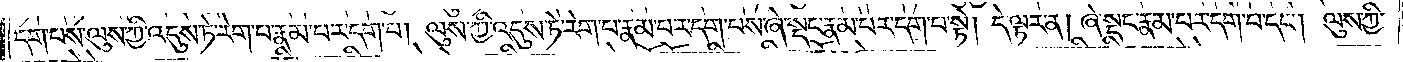དག་པས་ལུས་ཀྱི་འདུས་ཏེ་རེག་པ་རྣམ་པར་དག་པ། ལུས་ཀྱི་འདུས་ཏེ་རེག་པ་རྣམ་པར་དག་པས་ཞེ་སྡང་རྣམ་པར་དག་པ་སྟེ། དེ་ལྟར་ན། ཞེ་སྡང་རྣམ་པར་དག་པ་དང༌། ལུས་ཀྱི་
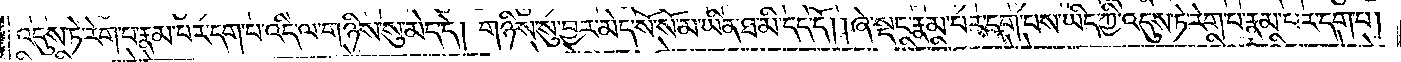འདུས་ཏེ་རེག་པ་རྣམ་པར་དག་པ་འདི་ལ་གཉིས་སུ་མེད་དེ། གཉིས་སུ་བྱར་མེད་སོ་སོ་མ་ཡིན་ཐ་མི་དད་དོ། །ཞེ་སྡང་རྣམ་པར་དག་པས་ཡིད་ཀྱི་འདུས་ཏེ་རེག་པ་རྣམ་པར་དག་པ།
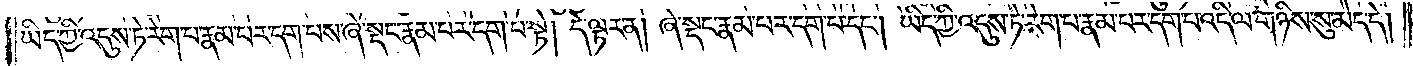ཡིད་ཀྱི་འདུས་ཏེ་རེག་པ་རྣམ་པར་དག་པས་ཞེ་སྡང་རྣམ་པར་དག་པ་སྟེ། དེ་ལྟར་ན། ཞེ་སྡང་རྣམ་པར་དག་པ་དང༌། ཡིད་ཀྱི་འདུས་ཏེ་རེག་པ་རྣམ་པར་དག་པ་འདི་ལ་གཉིས་སུ་མེད་དེ།
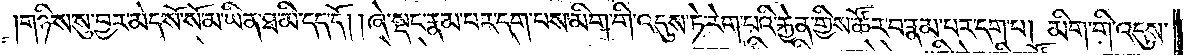གཉིས་སུ་བྱར་མེད་སོ་སོ་མ་ཡིན་ཐ་མི་དད་དོ། །ཞེ་སྡང་རྣམ་པར་དག་པས་མིག་གི་འདུས་ཏེ་རེག་པའི་རྐྱེན་གྱིས་ཚོར་བ་རྣམ་པར་དག་པ། མིག་གི་འདུས་
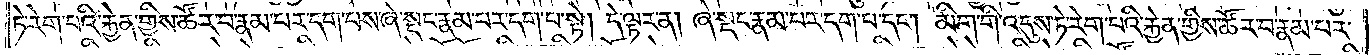ཏེ་རེག་པའི་རྐྱེན་གྱིས་ཚོར་བ་རྣམ་པར་དག་པས་ཞེ་སྡང་རྣམ་པར་དག་པ་སྟེ། དེ་ལྟར་ན། ཞེ་སྡང་རྣམ་པར་དག་པ་དང༌། མིག་གི་འདུས་ཏེ་རེག་པའི་རྐྱེན་གྱིས་ཚོར་བ་རྣམ་པར་
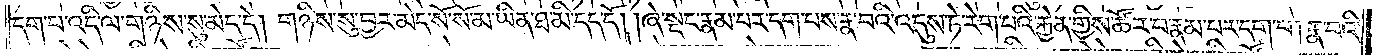དག་པ་འདི་ལ་གཉིས་སུ་མེད་དེ། གཉིས་སུ་བྱར་མེད་སོ་སོ་མ་ཡིན་ཐ་མི་དད་དོ། །ཞེ་སྡང་རྣམ་པར་དག་པས་རྣ་བའི་འདུས་ཏེ་རེག་པའི་རྐྱེན་གྱིས་ཚོར་བ་རྣམ་པར་དག་པ། རྣ་བའི་
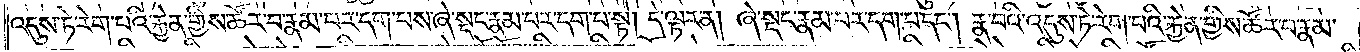འདུས་ཏེ་རེག་པའི་རྐྱེན་གྱིས་ཚོར་བ་རྣམ་པར་དག་པས་ཞེ་སྡང་རྣམ་པར་དག་པ་སྟེ། དེ་ལྟར་ན། ཞེ་སྡང་རྣམ་པར་དག་པ་དང༌། རྣ་བའི་འདུས་ཏེ་རེག་པའི་རྐྱེན་གྱིས་ཚོར་བ་རྣམ་
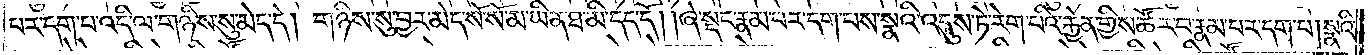པར་དག་པ་འདི་ལ་གཉིས་སུ་མེད་དེ། གཉིས་སུ་བྱར་མེད་སོ་སོ་མ་ཡིན་ཐ་མི་དད་དོ། །ཞེ་སྡང་རྣམ་པར་དག་པས་སྣའི་འདུས་ཏེ་རེག་པའི་རྐྱེན་གྱིས་ཚོར་བ་རྣམ་པར་དག་པ། སྣའི་
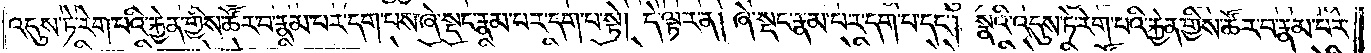འདུས་ཏེ་རེག་པའི་རྐྱེན་གྱིས་ཚོར་བ་རྣམ་པར་དག་པས་ཞེ་སྡང་རྣམ་པར་དག་པ་སྟེ། དེ་ལྟར་ན། ཞེ་སྡང་རྣམ་པར་དག་པ་དང༌། སྣའི་འདུས་ཏེ་རེག་པའི་རྐྱེན་གྱིས་ཚོར་བ་རྣམ་པར་
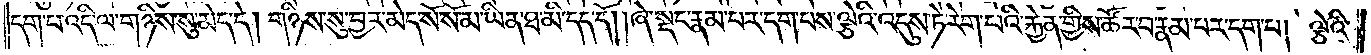དག་པ་འདི་ལ་གཉིས་སུ་མེད་དེ། གཉིས་སུ་བྱར་མེད་སོ་སོ་མ་ཡིན་ཐ་མི་དད་དོ། །ཞེ་སྡང་རྣམ་པར་དག་པས་ལྕེའི་འདུས་ཏེ་རེག་པའི་རྐྱེན་གྱིས་ཚོར་བ་རྣམ་པར་དག་པ། ལྕེའི་
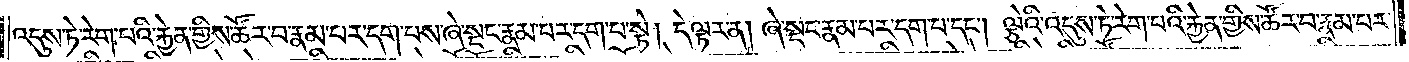འདུས་ཏེ་རེག་པའི་རྐྱེན་གྱིས་ཚོར་བ་རྣམ་པར་དག་པས་ཞེ་སྡང་རྣམ་པར་དག་པ་སྟེ། དེ་ལྟར་ན། ཞེ་སྡང་རྣམ་པར་དག་པ་དང༌། ལྕེའི་འདུས་ཏེ་རེག་པའི་རྐྱེན་གྱིས་ཚོར་བ་རྣམ་པར་
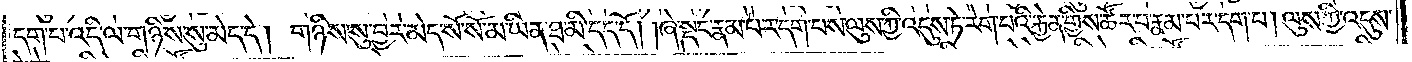དག་པ་འདི་ལ་གཉིས་སུ་མེད་དེ། གཉིས་སུ་བྱར་མེད་སོ་སོ་མ་ཡིན་ཐ་མི་དད་དོ། །ཞེ་སྡང་རྣམ་པར་དག་པས་ལུས་ཀྱི་འདུས་ཏེ་རེག་པའི་རྐྱེན་གྱིས་ཚོར་བ་རྣམ་པར་དག་པ། ལུས་ཀྱི་འདུས་
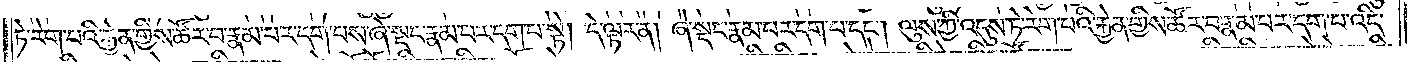ཏེ་རེག་པའི་རྐྱེན་གྱིས་ཚོར་བ་རྣམ་པར་དག་པས་ཞེ་སྡང་རྣམ་པར་དག་པ་སྟེ། དེ་ལྟར་ན། ཞེ་སྡང་རྣམ་པར་དག་པ་དང༌། ལུས་ཀྱི་འདུས་ཏེ་རེག་པའི་རྐྱེན་གྱིས་ཚོར་བ་རྣམ་པར་དག་པ་འདི་
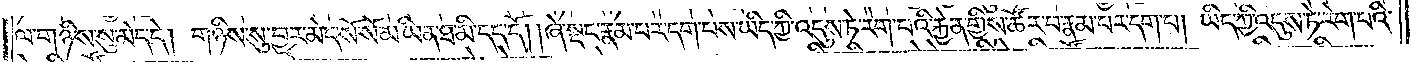ལ་གཉིས་སུ་མེད་དེ། གཉིས་སུ་བྱར་མེད་སོ་སོ་མ་ཡིན་ཐ་མི་དད་དོ། །ཞེ་སྡང་རྣམ་པར་དག་པས་ཡིད་ཀྱི་འདུས་ཏེ་རེག་པའི་རྐྱེན་གྱིས་ཚོར་བ་རྣམ་པར་དག་པ། ཡིད་ཀྱི་འདུས་ཏེ་རེག་པའི་
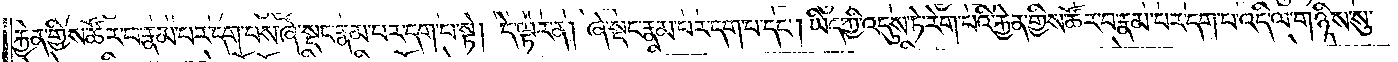རྐྱེན་གྱིས་ཚོར་བ་རྣམ་པར་དག་པས་ཞེ་སྡང་རྣམ་པར་དག་པ་སྟེ། དེ་ལྟར་ན། ཞེ་སྡང་རྣམ་པར་དག་པ་དང༌། ཡིད་ཀྱི་འདུས་ཏེ་རེག་པའི་རྐྱེན་གྱིས་ཚོར་བ་རྣམ་པར་དག་པ་འདི་ལ་གཉིས་སུ་
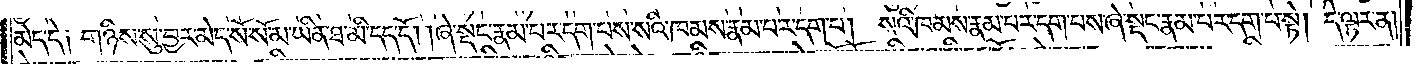མེད་དེ༑ གཉིས་སུ་བྱར་མེད་སོ་སོ་མ་ཡིན་ཐ་མི་དད་དོ། །ཞེ་སྡང་རྣམ་པར་དག་པས་སའི་ཁམས་རྣམ་པར་དག་པ། སའི་ཁམས་རྣམ་པར་དག་པས་ཞེ་སྡང་རྣམ་པར་དག་པ་སྟེ། དེ་ལྟར་ན།
